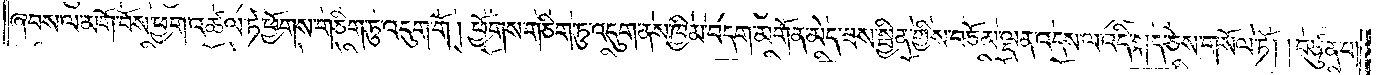ཞབས་ལ་མགོ་བོས་ཕྱག་འཚལ་ཏེ་ཕྱོགས་གཅིག་ཏུ་འདུག་གོ། ཕྱོགས་གཅིག་ཏུ་འདུག་ནས་ཁྱིམ་བདག་མགོན་མེད་ཟས་སྦྱིན་གྱིས་བཅོམ་ལྡན་འདས་ལ་འདི་སྐད་ཅེས་གསོལ་ཏོ། །བཙུན་པ།
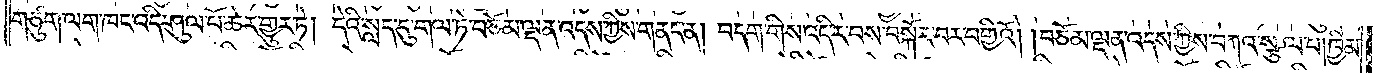གཙུག་ལག་ཁང་འདི་ཤུལ་པོ་ཆེར་གྱུར་ཏེ། དེའི་སླད་དུ་གལ་ཏེ་བཅོམ་ལྡན་འདས་ཀྱིས་གནང་ན། བདག་གིས་འདིར་བས་བསྐོར་བར་བགྱིའོ། །བཅོམ་ལྡན་འདས་ཀྱིས་བཀའ་སྩལ་པ། ཁྱིམ་
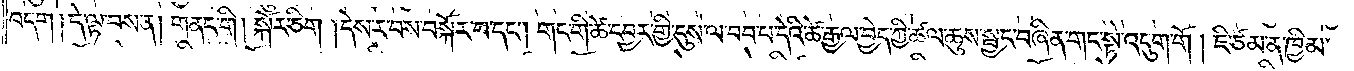བདག། དེ་ལྟ་བས་ན། གནང་གི། སྐོར་ཅིག །དེས་ར་བས་བསྐོར་བ་དང༌། གང་གི་ཚེ་དབྱར་གྱི་དུས་ལ་བབ་པ་དེའི་ཚེ་རྒྱལ་བྱེད་ཀྱི་ཚལ་ཆུས་སྦྱང་བཞིན་གང་སྟེ་འདུག་གོ །ཇི་ཙམ་ན་ཁྱིམ་
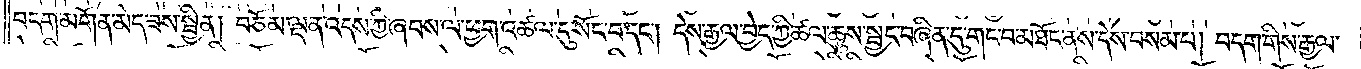བདག་མགོན་མེད་ཟས་སྦྱིན། བཅོམ་ལྡན་འདས་ཀྱི་ཞབས་ལ་ཕྱག་འཚལ་དུ་སོང་བ་དང༌། དེས་རྒྱལ་བྱེད་ཀྱི་ཚལ་ཆུས་སྦྱང་བཞིན་དུ་གང་བ་མཐོང་ནས་དེས་བསམ་པ། བདག་གིས་རྒྱལ་
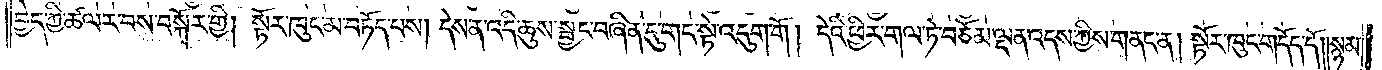བྱེད་ཀྱི་ཚལ་ར་བས་བསྐོར་གྱི། སྟོར་ཁུང་མ་བཏོད་པས། དེས་ན་འདི་ཆུས་སྦྱང་བཞིན་དུ་གང་སྟེ་འདུག་གོ། དེའི་ཕྱིར་གལ་ཏེ་བཅོམ་ལྡན་འདས་ཀྱིས་གནང་ན། སྟོར་ཁུང་གདོད་དོ། །སྙམ་
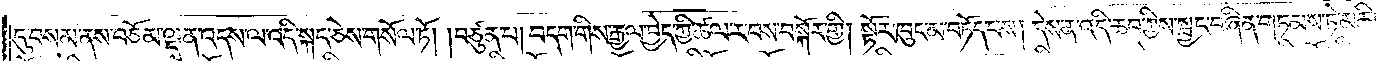དུ་བསམ་ནས་བཅོམ་ལྡན་འདས་ལ་འདི་སྐད་ཅེས་གསོལ་ཏོ། །བཙུན་པ། བདག་གིས་རྒྱལ་བྱེད་ཀྱི་ཚལ་ར་བས་བསྐོར་གྱི། སྟོར་ཁུང་མ་བཏོད་པས། དེས་ན་འདི་ཆབ་ཀྱིས་སྦྱང་བཞིན་གཏམས་ཏེ་མཆིས་
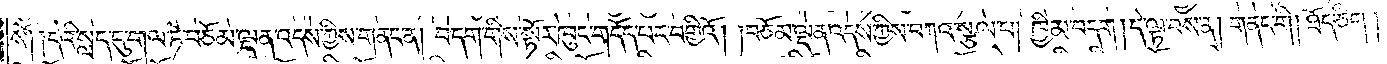སོ༑ ༑དེའི་སླད་དུ་གལ་ཏེ་བཅོམ་ལྡན་འདས་ཀྱིས་གནང་ན། བདག་གིས་སྟོར་ཁུང་གདོད་པར་བགྱིའོ། །བཅོམ་ལྡན་འདས་ཀྱིས་བཀའ་སྩལ་པ། ཁྱིམ་བདག། དེ་ལྟ་བས་ན། གནང་གི། ཐོད་ཅིག།
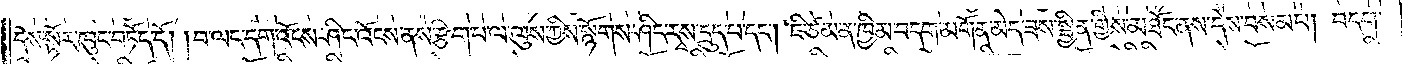དེས་སྟོར་ཁུང་བཏོད་དོ། །བ་ལང་དག་འོངས་ཤིང་འོངས་ནས་རྩིག་པ་ལ་ལུས་ཀྱིས་སྙོགས་ཤིང་རྭས་དྲུད་པ་དང༌། ཇི་ཙམ་ན་ཁྱིམ་བདག་མགོན་མེད་ཟས་སྦྱིན་གྱིས་མཐོང་ནས་དེས་བསམ་པ། བདག་
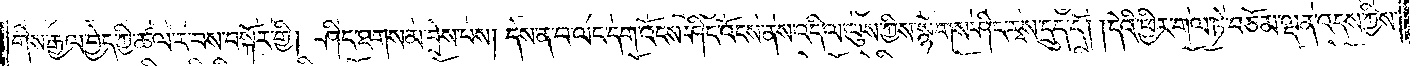གིས་རྒྱལ་བྱེད་ཀྱི་ཚལ་ར་བས་བསྐོར་གྱི། ཤིང་ཐགས་མ་བྲེས་པས། དེས་ན་བ་ལང་དག་འོངས་ཤིང་འོངས་ནས་འདི་ལ་ལུས་ཀྱིས་སྙོགས་ཤིང་རྭས་དྲུད་དོ། །དེའི་ཕྱིར་གལ་ཏེ་བཅོམ་ལྡན་འདས་ཀྱིས་
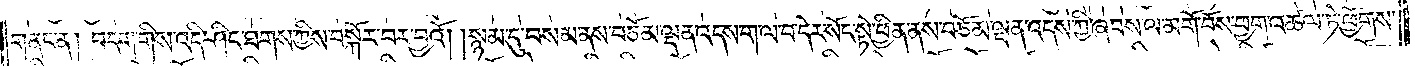གནང་ན། བདག་གིས་འདི་ཤིང་ཐགས་ཀྱིས་བསྐོར་བར་བྱའོ། །སྙམ་དུ་བསམ་ནས་བཅོམ་ལྡན་འདས་ག་ལ་བ་དེར་སོང་སྟེ་ཕྱིན་ནས་བཅོམ་ལྡན་འདས་ཀྱིས་ཞབས་ལ་མགོ་བོས་ཕྱག་འཚལ་ཏེ་ཕྱོགས་
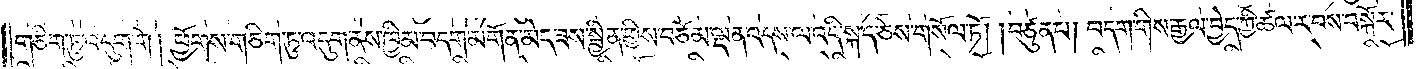གཅིག་ཏུ་འདུག་གོ། ཕྱོགས་གཅིག་ཏུ་འདུག་ནས་ཁྱིམ་བདག་མགོན་མེད་ཟས་སྦྱིན་གྱིས་བཅོམ་ལྡན་འདས་ལ་འདི་སྐད་ཅེས་གསོལ་ཏོ། །བཙུན་པ། བདག་གིས་རྒྱལ་བྱེད་ཀྱི་ཚལ་ར་བས་བསྐོར་
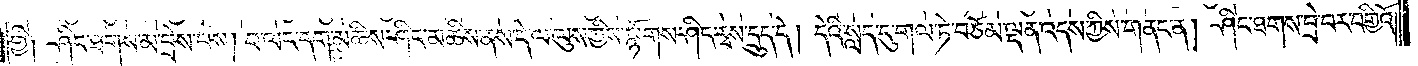གྱི༑ ཤིང་ཐགས་མ་བྲེས་པས། བ་ལང་དག་མཆིས་ཤིང་མཆིས་ནས་དེ་ལ་ལུས་ཀྱིས་སྙོགས་ཤིང་རྭས་དྲུད་དེ། དེའི་སླད་དུ་གལ་ཏེ་བཅོམ་ལྡན་འདས་ཀྱིས་གནང་ན། ཤིང་ཐགས་བྲེ་བར་བགྱིའོ། །
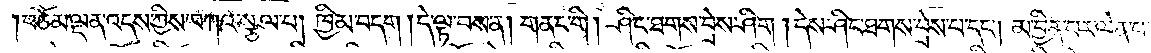བཅོམ་ལྡན་འདས་ཀྱིས་བཀའ་སྩལ་པ། ཁྱིམ་བདག། དེ་ལྟ་བས་ན། གནང་གི། ཤིང་ཐགས་བྲེས་ཤིག །དེས་ཤིང་ཐགས་བྲེས་པ་དང༌། མ་བྱིན་པར་ལེན་པ་
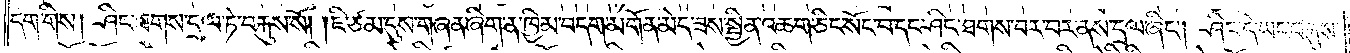དག་གིས། ཤིང་ཐག་དྲལ་ཏེ་བརྐུས་སོ། །ཇི་ཙམ་དུས་གཞན་ཞིག་ན་ཁྱིམ་བདག་མགོན་མེད་ཟས་སྦྱིན་འཆག་ཅིང་སོང་བ་དང་ཤིང་ཐགས་བར་བར་ནས་དྲལ་ཞིང༌། ཤིང་དེ་ཡང་བརྐུས་
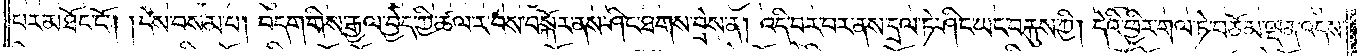པར་མཐོང་ངོ༌། །དེས་བསམ་པ། བདག་གིས་རྒྱལ་བྱེད་ཀྱི་ཚལ་ར་བས་བསྐོར་ནས་ཤིང་ཐགས་བྲེས་ན། འདི་བར་བར་ནས་དྲལ་ཏེ་ཤིང་ཡང་བརྐུས་ཀྱི། དེའི་ཕྱིར་གལ་ཏེ་བཅོམ་ལྡན་འདས་
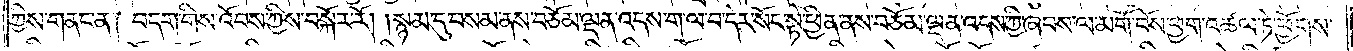ཀྱིས་གནང་ན། བདག་གིས་འོབས་ཀྱིས་བསྐོར་རོ། །སྙམ་དུ་བསམ་ནས་བཅོམ་ལྡན་འདས་ག་ལ་བ་དེར་སོང་སྟེ་ཕྱིན་ནས་བཅོམ་ལྡན་འདས་ཀྱི་ཞབས་ལ་མགོ་བོས་ཕྱག་འཚལ་ཏེ་ཕྱོགས་
